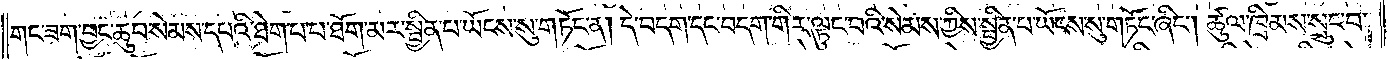གང་ཟག་བྱང་ཆུབ་སེམས་དཔའི་ཐེག་པ་པ་ཐོག་མར་སྦྱིན་པ་ཡོངས་སུ་གཏོང་ན། དེ་བདག་དང་བདག་གིར་ལྟུང་བའི་སེམས་ཀྱིས་སྦྱིན་པ་ཡོངས་སུ་གཏོང་ཞིང༌། ཚུལ་ཁྲིམས་སྲུང་བ་
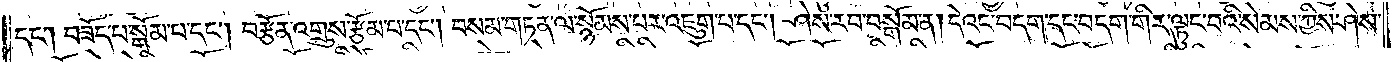དང༌། བཟོད་པ་སྒོམ་པ་དང༌། བརྩོན་འགྲུས་རྩོམ་པ་དང༌། བསམ་གཏན་ལ་སྙོམས་པར་འཇུག་པ་དང༌། ཤེས་རབ་སྒོམ་ན། དེའང་བདག་དང་བདག་གིར་ལྟུང་བའི་སེམས་ཀྱིས་ཤེས་
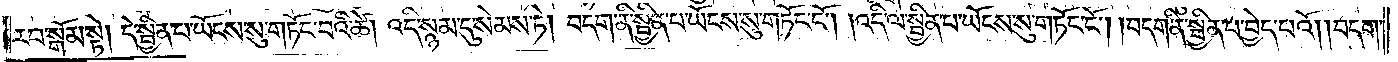རབ་སྒོམ་སྟེ། དེ་སྦྱིན་པ་ཡོངས་སུ་གཏོང་བའི་ཚེ། འདི་སྙམ་དུ་སེམས་ཏེ། བདག་ནི་སྦྱིན་པ་ཡོངས་སུ་གཏོང་ངོ༌། །འདི་ལ་སྦྱིན་པ་ཡོངས་སུ་གཏོང་ངོ༌། །བདག་ནི་སྦྱིན་པ་བྱེད་པའོ། །བདག་
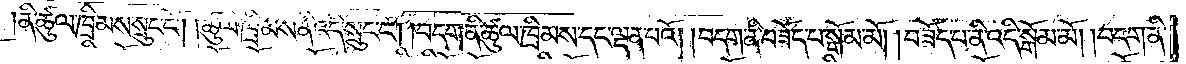ནི་ཚུལ་ཁྲིམས་སྲུང་ངོ༌། །ཚུལ་ཁྲིམས་ནི་འདི་སྲུང་ངོ༌། །བདག་ནི་ཚུལ་ཁྲིམས་དང་ལྡན་པའོ། །བདག་ནི་བཟོད་པ་སྒོམ་མོ། །བཟོད་པ་ནི་འདི་སྒོམ་མོ། །བདག་ནི་
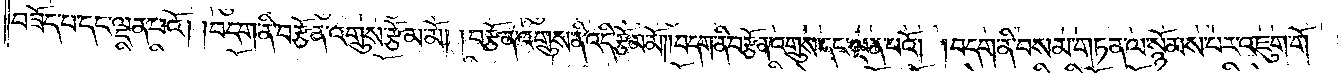བཟོད་པ་དང་ལྡན་པའོ། །བདག་ནི་བརྩོན་འགྲུས་རྩོམ་མོ། །བརྩོན་འགྲུས་ནི་འདི་རྩོམ་མོ། །བདག་ནི་བརྩོན་འགྲུས་དང་ལྡན་པའོ། །བདག་ནི་བསམ་གཏན་ལ་སྙོམས་པར་འཇུག་གོ།
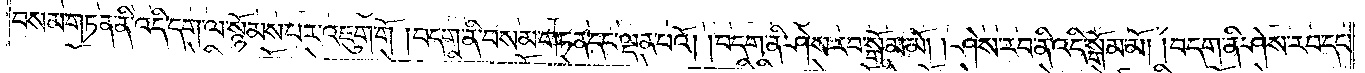བསམ་གཏན་ནི་འདི་དག་ལ་སྙོམས་པར་འཇུག་གོ །བདག་ནི་བསམ་གཏན་དང་ལྡན་པའོ། །བདག་ནི་ཤེས་རབ་སྒོམ་མོ། །ཤེས་རབ་ནི་འདི་སྒོམ་མོ། །བདག་ནི་ཤེས་རབ་དང་
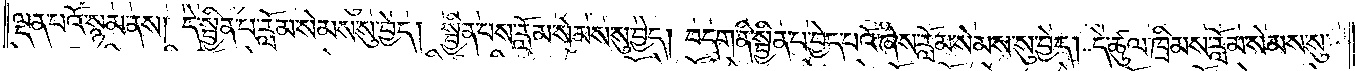ལྡན་པའོ་སྙམ་ནས། དེ་སྦྱིན་པ་རློམ་སེམས་སུ་བྱེད། སྦྱིན་པས་རློམ་སེམས་སུ་བྱེད། བདག་ནི་སྦྱིན་པ་བྱེད་པའོ་ཞེས་རློམ་སེམས་སུ་བྱེད། དེ་ཚུལ་ཁྲིམས་རློམ་སེམས་སུ་
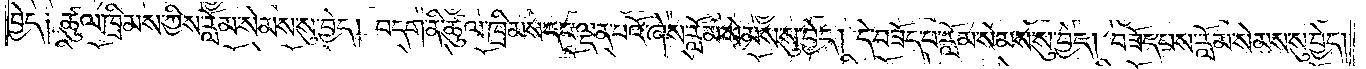བྱེད། ཚུལ་ཁྲིམས་ཀྱིས་རློམ་སེམས་སུ་བྱེད། བདག་ནི་ཚུལ་ཁྲིམས་དང་ལྡན་པའོ་ཞེས་རློམ་སེམས་སུ་བྱེད། དེ་བཟོད་པ་རློམ་སེམས་སུ་བྱེད། བཟོད་པས་རློམ་སེམས་སུ་བྱེད།
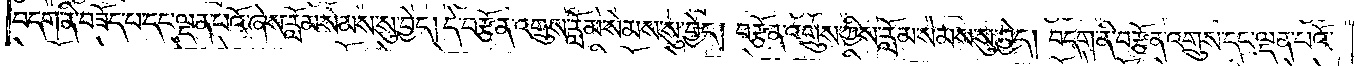བདག་ནི་བཟོད་པ་དང་ལྡན་པའོ་ཞེས་རློམ་སེམས་སུ་བྱེད། དེ་བརྩོན་འགྲུས་རློམ་སེམས་སུ་བྱེད། བརྩོན་འགྲུས་ཀྱིས་རློམ་སེམས་སུ་བྱེད། བདག་ནི་བརྩོན་འགྲུས་དང་ལྡན་པའོ་
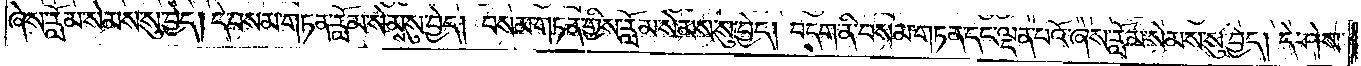ཞེས་རློམ་སེམས་སུ་བྱེད། དེ་བསམ་གཏན་རློམ་སེམས་སུ་བྱེད། བསམ་གཏན་གྱིས་རློམ་སེམས་སུ་བྱེད། བདག་ནི་བསམ་གཏན་དང་ལྡན་པའོ་ཞེས་རློམ་སེམས་སུ་བྱེད། དེ་ཤེས་
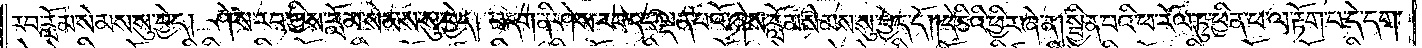རབ་རློམ་སེམས་སུ་བྱེད། ཤེས་རབ་ཀྱིས་རློམ་སེམས་སུ་བྱེད། བདག་ནི་ཤེས་རབ་དང་ལྡན་པའོ་ཞེས་རློམ་སེམས་སུ་བྱེད་དོ། །དེ་ཅིའི་ཕྱིར་ཞེ་ན། སྦྱིན་པའི་ཕ་རོལ་ཏུ་ཕྱིན་པ་ལ་རྟོག་པ་དེ་དག་
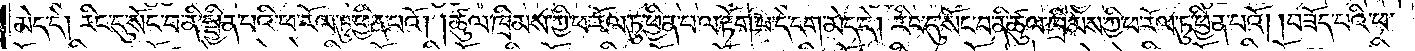མེད་དེ། རིང་དུ་སོང་བ་ནི་སྦྱིན་པའི་ཕ་རོལ་ཏུ་ཕྱིན་པའོ། །ཚུལ་ཁྲིམས་ཀྱི་ཕ་རོལ་ཏུ་ཕྱིན་པ་ལ་རྟོག་པ་དེ་དག་མེད་དེ། རིང་དུ་སོང་བ་ནི་ཚུལ་ཁྲིམས་ཀྱི་ཕ་རོལ་ཏུ་ཕྱིན་པའོ། །བཟོད་པའི་ཕ་
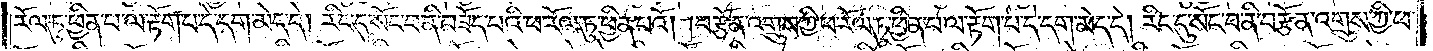རོལ་ཏུ་ཕྱིན་པ་ལ་རྟོག་པ་དེ་དག་མེད་དེ། རིང་དུ་སོང་བ་ནི་བཟོད་པའི་ཕ་རོལ་ཏུ་ཕྱིན་པའོ། །བརྩོན་འགྲུས་ཀྱི་ཕ་རོལ་ཏུ་ཕྱིན་པ་ལ་རྟོག་པ་དེ་དག་མེད་དེ། རིང་དུ་སོང་བ་ནི་བརྩོན་འགྲུས་ཀྱི་ཕ་
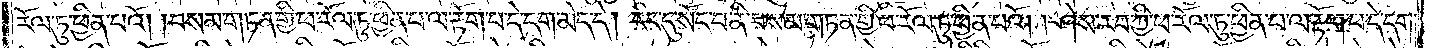རོལ་ཏུ་ཕྱིན་པའོ། བསམ་གཏན་གྱི་ཕ་རོལ་ཏུ་ཕྱིན་པ་ལ་རྟོག་པ་དེ་དག་མེད་དེ། རིང་དུ་སོང་བ་ནི་བསམ་གཏན་གྱི་ཕ་རོལ་ཏུ་ཕྱིན་པའོ། །ཤེས་རབ་ཀྱི་ཕ་རོལ་ཏུ་ཕྱིན་པ་ལ་རྟོག་པ་དེ་དག་
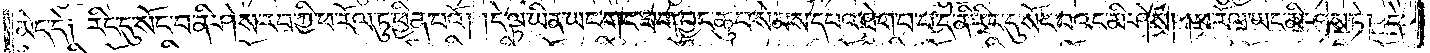མེད་དེ། རིང་དུ་སོང་བ་ནི་ཤེས་རབ་ཀྱི་ཕ་རོལ་ཏུ་ཕྱིན་པའོ། །དེ་ལྟ་ཡིན་ཡང་གང་ཟག་བྱང་ཆུབ་སེམས་དཔའ་ཐེག་པ་པ་དེ་ནི་རིང་དུ་སོང་བའང་མི་ཤེས། ཕ་རོལ་ཡང་མི་ཤེས་ཏེ། དེ་
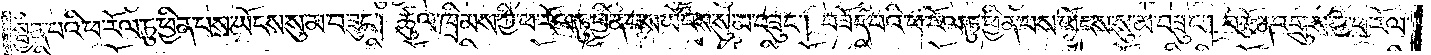སྦྱིན་པའི་ཕ་རོལ་ཏུ་ཕྱིན་པས་ཡོངས་སུ་མ་བཟུང༌། ཚུལ་ཁྲིམས་ཀྱི་ཕ་རོལ་ཏུ་ཕྱིན་པས་ཡོངས་སུ་མ་བཟུང༌། བཟོད་པའི་ཕ་རོལ་ཏུ་ཕྱིན་པས་ཡོངས་སུ་མ་བཟུང༌། བརྩོན་འགྲུས་ཀྱི་ཕ་རོལ་
